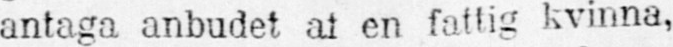antaga anbudet at en fattig kvinna,
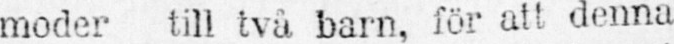moder till två barn, för att denna
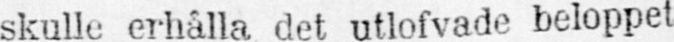skulle erhålla det utlofvade beloppet
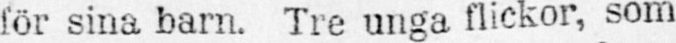för sina barn. Tre unga flickor, som
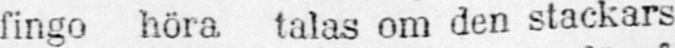fingo höra talas om den stackars
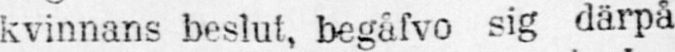kvinnans beslut, begåfvo sig därpå
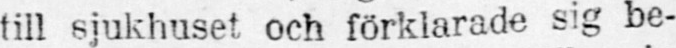till sjukhuset, och förklarade sig be-
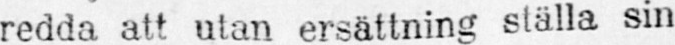redda att utan ersättning ställa sin
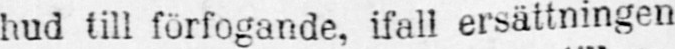hud till förfogande, ifall ersättningen
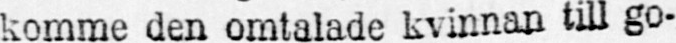komme den omtalade kvinnan till go-
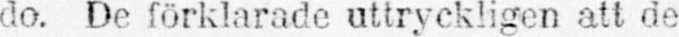do. De förklarade uttryckligen att de
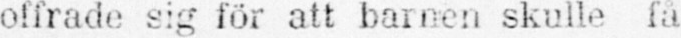offrade sig för att barnen skulle få
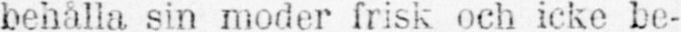behålla sin moder frisk och icke be-
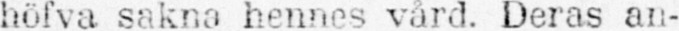höfva sakna hennes vård. Deras an-
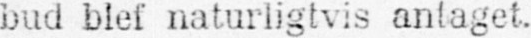bud blef naturligtvis antaget.
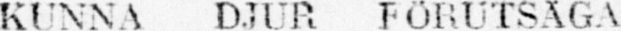KUNNA DJUR FÖRUTSÄGA
